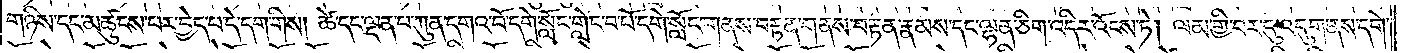གཉིས་དང་མཚུངས་པར་བྱེད་པ་དེ་དག་གིས། ཚེ་དང་ལྡན་པ་ཀུན་དགའ་བོ་དགེ་སློང་གླེང་བ་པོ་དགེ་སློང་གནས་བརྟན་གནས་བརྟན་རྣམས་དང་ལྷན་ཅིག་འདིར་འོངས་ཏེ། ལམ་གྱི་བར་དུ་འདུག་ནས་དགེ་
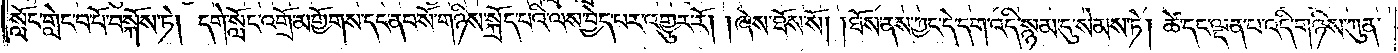སློང་གླེང་བ་པོ་བསྐོས་ཏེ། དགེ་སློང་འགྲོ་མགྱོགས་དང་ནབ་སོ་གཉིས་སྐྲོད་པའི་ལས་བྱེད་པར་འགྱུར་རོ། །ཞེས་ཐོས་སོ། །ཐོས་ནས་ཀྱང་དེ་དག་འདི་སྙམ་དུ་སེམས་ཏེ། ཚེ་དང་ལྡན་པ་འདི་གཉིས་ཀུན་
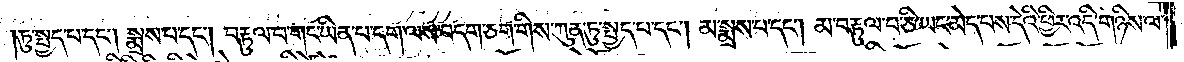ཏུ་སྤྱད་པ་དང༌། སྨྲས་པ་དང༌། བརྟུལ་པ་གང་ཡིན་པ་དག་ལས་བདག་ཅག་གིས་ཀུན་ཏུ་སྤྱད་པ་དང༌། མ་སྨྲས་པ་དང༌། མ་བརྟུལ་བ་ཅི་ཡང་མེད་པས་དེའི་ཕྱིར་འདི་གཉིས་ལ་
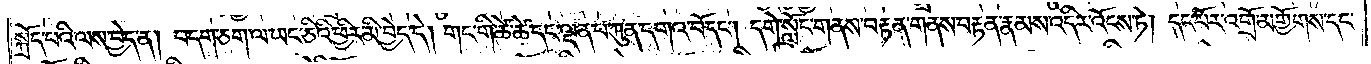སྐྲོད་པའི་ལས་བྱེད་ན། བདག་ཅག་ལ་ཡང་ཅིའི་ཕྱིར་མི་བྱེད་དེ། གང་གི་ཚེ་ཚེ་དང་ལྡན་པ་ཀུན་དགའ་བོ་དང༌། དགེ་སློང་གནས་བརྟན་གནས་བརྟན་རྣམས་འདིར་འོངས་ཏེ། དང་པོར་འགྲོ་མགྱོགས་དང་
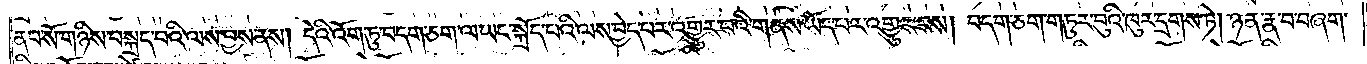ནབ་སོ་གཉིས་བསྐྲད་པའི་ལས་བྱས་ནས། དེའི་འོག་ཏུ་བདག་ཅག་ལ་ཡང་སྐྲོད་པའི་ལས་བྱེད་པར་འགྱུར་བའི་གནས་ཡོད་པར་འགྱུར་བས། བདག་ཅག་གཏུར་བུའི་ཁུར་དྲགས་ཏེ། ཉན་རྣ་བ་བཞག་
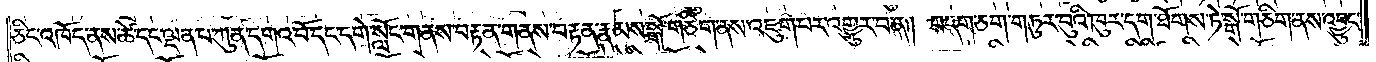ཅིང་འཁོད་ནས་ཚེ་དང་ལྡན་པ་ཀུན་དགའ་བོ་དང་དགེ་སློང་གནས་བརྟན་གནས་བརྟན་རྣམས་སྒོ་གཅིག་ནས་འཇུག་པར་འགྱུར་བ་ན། བདག་ཅག་གཏུར་བུའི་ཁུར་དག་ཐོགས་ཏེ་སྒོ་གཅིག་ནས་འབྱུང་
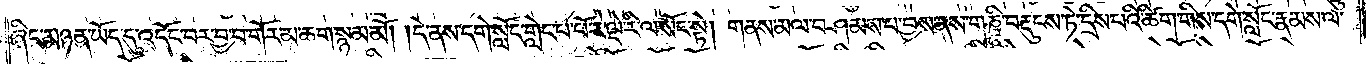ཞིང་མཉན་ཡོད་དུ་འདོང་བར་བྱ་བ་གོར་མ་ཆག་སྙམ་མོ། །དེ་ནས་དགེ་སློང་གླེང་བ་པོ་རེ་ལྡེ་རི་ལ་སོང་སྟེ། གནས་མལ་བཤམས་པ་བྱས་ནས་གཎྜཱི་བརྡུངས་ཏེ་དྲིས་པའི་ཚིག་གིས་དགེ་སློང་རྣམས་ལ་
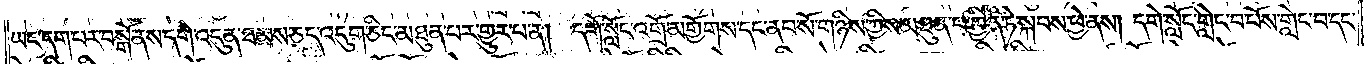ཡང་དག་པར་བསྒོ་ནས་དགེ་འདུན་ཐམས་ཅད་འདུག་ཅིང་མཐུན་པར་གྱུར་པ་ན། དགེ་སློང་འགྲོ་མགྱོགས་དང་ནབ་སོ་གཉིས་ཀྱིས་མཐུན་པ་བྱིན་ཏེ་སྐབས་ཕྱེ་ནས། དགེ་སློང་གླེང་བ་པོས་གླེང་བ་དང་
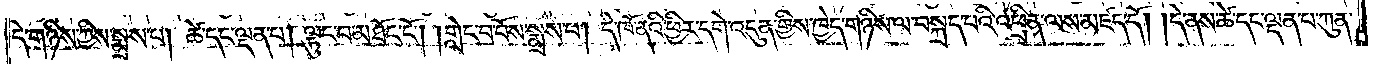དེ་གཉིས་ཀྱིས་སྨྲས་པ། ཚེ་དང་ལྡན་པ། ལྟུང་བ་མཐོང་ངོ༌། །གླེང་བ་པོས་སྨྲས་པ། དེ་ཁོ་ནའི་ཕྱིར་དགེ་འདུན་གྱིས་ཁྱེད་གཉིས་ལ་བསྐྲད་པའི་འཕྲིན་ལས་མཛད་དོ། །དེ་ནས་ཚེ་དང་ལྡན་པ་ཀུན་
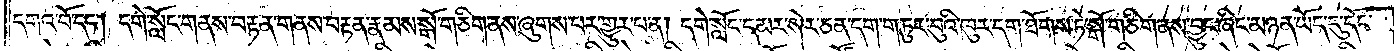དགའ་བོ་དང༌། དགེ་སློང་གནས་བརྟན་གནས་བརྟན་རྣམས་སྒོ་གཅིག་ནས་ཞུགས་པར་གྱུར་པ་ན། དགེ་སློང་དམར་སེར་ཅན་དག་གཏུར་བུའི་ཁུར་དག་ཐོགས་ཏེ་སྒོ་གཅིག་ནས་བྱུང་ཞིང་མཉན་ཡོད་དུ་དོང་
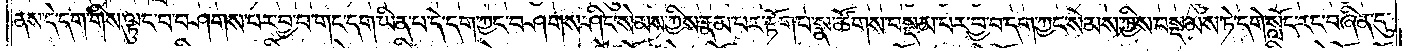ནས་དེ་དག་གིས་ལྟུང་བ་བཤགས་པར་བྱ་བ་གང་དག་ཡིན་པ་དེ་དག་ཀྱང་བཤགས་ཤིང་སེམས་ཀྱིས་རྣམ་པར་རྟོག་པ་སྣ་ཚོགས་བསྡམ་པར་བྱ་བ་དག་ཀྱང་སེམས་ཀྱིས་བསྡམས་ཏེ་དགེ་སློང་རང་བཞིན་དུ་
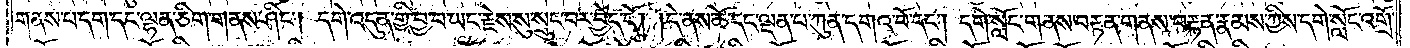གནས་པ་དག་དང་ལྷན་ཅིག་གནས་ཤིང༌། དགེ་འདུན་གྱི་བྱ་བ་ཡང་རྗེས་སུ་སྲུང་བར་བྱེད་དོ། །དེ་ནས་ཚེ་དང་ལྡན་པ་ཀུན་དགའ་བོ་དང༌། དགེ་སློང་གནས་བརྟན་གནས་བརྟན་རྣམས་ཀྱིས་དགེ་སློང་འགྲོ་
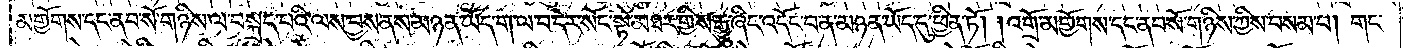མགྱོགས་དང་ནབ་སོ་གཉིས་ལ་བསྐྲད་པའི་ལས་བྱས་ནས་མཉན་ཡོད་ག་ལ་བ་དེར་སོང་སྟེ་མཐར་གྱིས་རྒྱུ་ཞིང་འདོང་བ་ན་མཉན་ཡོད་དུ་ཕྱིན་ཏོ། །འགྲོ་མགྱོགས་དང་ནབ་སོ་གཉིས་ཀྱིས་བསམ་པ། གང་
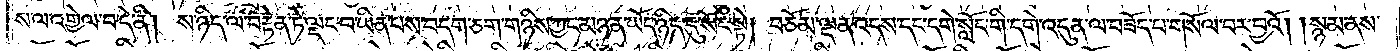ས་ལ་འགྱེལ་བ་དེ་ནི། ས་ཉིད་ལ་བརྟེན་ཏེ་ལྡང་བ་ཡིན་པས་བདག་ཅག་གཉིས་ཀྱང་མཉན་ཡོད་ཉིད་དུ་སོང་སྟེ། བཅོམ་ལྡན་འདས་དང་དགེ་སློང་གི་དགེ་འདུན་ལ་བཟོད་པ་གསོལ་བར་བྱའོ། །སྙམ་ནས་
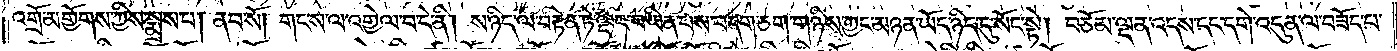འགྲོ་མགྱོགས་ཀྱིས་སྨྲས་པ། ནབ་སོ། །གང་ས་ལ་འགྱེལ་བ་དེ་ནི། ས་ཉིད་ལ་བརྟེན་ཏེ་ལྡང་བ་ཡིན་པས་བདག་ཅག་གཉིས་ཀྱང་མཉན་ཡོད་ཉིད་དུ་སོང་སྟེ། བཅོམ་ལྡན་འདས་དང་དགེ་འདུན་ལ་བཟོད་པ་
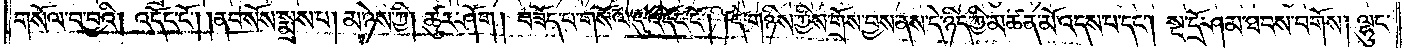གསོལ་བ་བྱའི། འདོང་ངོ༌། །ནབ་སོས་སྨྲས་པ། མ་ཉེས་ཀྱི། ཚུར་ཤོག། བཟོད་པ་གསོལ་དུ་འདོང་ངོ༌། །དེ་གཉིས་ཀྱིས་གྲོས་བྱས་ནས་དེ་ཉིད་ཀྱི་མཚན་མོ་འདས་པ་དང༌། སྔ་དྲོ་ཤམ་ཐབས་བགོས། ལྷུང་
